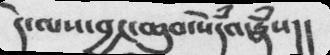དེ་ལས་བྱང་ཆུབ་སེཾདའ་རྣཾས།།
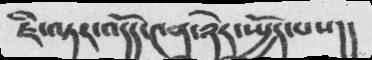ཇི་ལྟར་འདོད་༤ན་ཉེར་སྤྱོད་པས།།
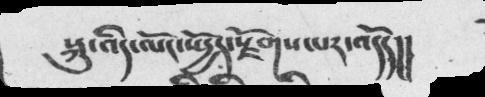སྐུ་འདི་ལོང་སྤྱོད་སྫོགས་པར་འདོད།།
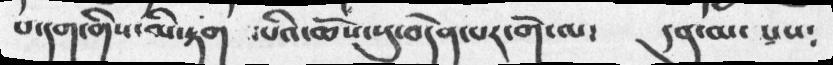པ་དག་གིས་མི་རྟག  ་པའི་ཆོས་སུ་བདེན་པར་གོ་ལ་    དབུ་མ་ པས༴
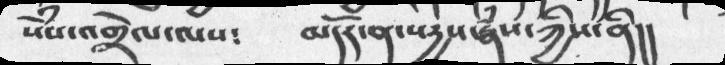སེཾས་འགྲེལ་ལས༴          མདོར་ན་སདྱས་རྣཾས་ཀྱིས་ནི།།
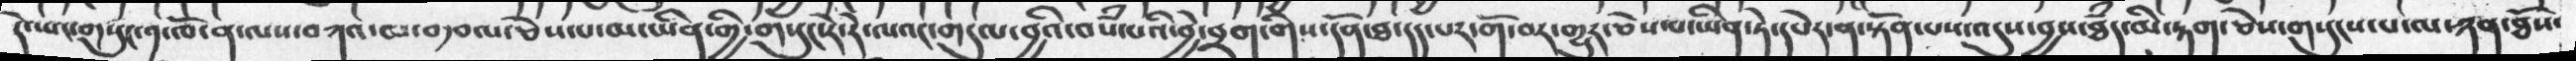དེ་ཡང་གསུང་༡་ཁོ་ན་ལས་བཀའ་མ་བརྩལ་ཅེས་པ་མ་ཡིན་གྱི་གསུང་རེ་རེར་ལའང་གདུལ་བྱའི་བསཾ་པའི་བྱེ་བྲག་གིས་དོན་ཐ་དད་པར་གོ་བར་འགྱུར་ཅེས་པ་ཡིན་ཏེ་དཔེར་ན་སྟོན་པས་འདུས་བྱས་ཐཾད་མི་རྟག་ཅེས་གསུངས་པ་ལ་ཉན་ཐོས་
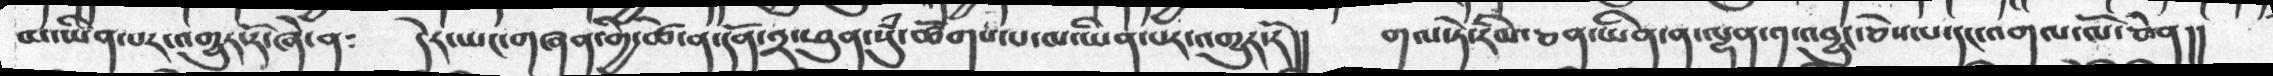མ་ཡིན་པར་འགྱུར་རོ་ཞེ་ན༴   དེར་ཡང་གཞན་གྱི་ཚེ་ན་དོན་༢་ཕུན་སུཾ་ཚོགས་པ་མ་ཡིན་པར་འགྱུར་རོ།།  གལ་ཏེ་རིམ་ཅན་ཡིན་ན་ལྷན་༡་འབྱུང་ཅེས་པ་དང་འགལ་ལོ་ཅེ་ན།།
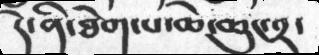དེ་ནི་ཐེག་པ་ཆེ་ཆུང་༢་
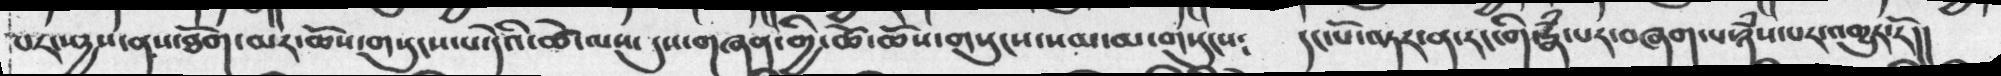པར་སདྱས་ནས་ཐོག་མར་ཆོས་གསུངས་པ་དེའི་ཚེ་ལས་ དུས་གཞན་གྱི་ཚེ་ཆོས་གསུངས་སམ་མ་གསུངས༴   དང་པོ་ལྟར་ན་རང་གི་རྣཾ་པར་བཞག་པ་ཉཾས་པར་འགྱུར་རོ།།
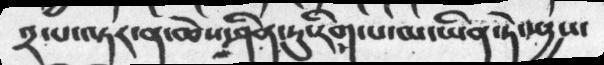༢་པ་ལྟར་ན་ཆེས་ཤིན་ཏུ་རིག་པ་མ་ཡིན་ཏེ་སདྱས་
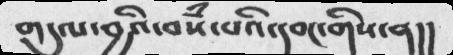གདུལ་བྱའི་བསཾ་པའི་དབང་གིས་ན།།
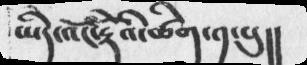ཡིད་འོང་རྡོེའི་ཚིག་༡་པུ།།
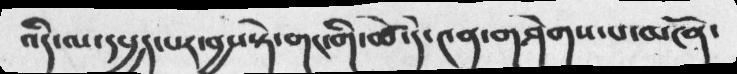འདི་ལ་དཔྱད་པར་བྱས་སྟེ་གང་གི་ཚེ་དེ་༤ན་གཤེགས་པ་མངོན་
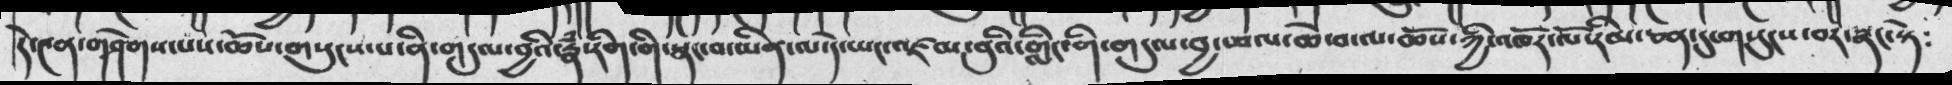དེ་༤ན་གཤེགས་པས་ཆོས་གསུངས་པ་ནི་གདུལ་བྱའི་རྣཾ་རིག་གི་སྣང་བ་མིན་ལ་དེ་ཡང་འཛམ་བུའི་གླིང་གི་གདུལ་བྱ་ཕལ་ཆེ་བ་ལ་ཆོས་ཀྱི་འཁོར་ལོ་རིམ་ཅན་དུ་གསུངས་པར་སྣང་སྟེ༴
